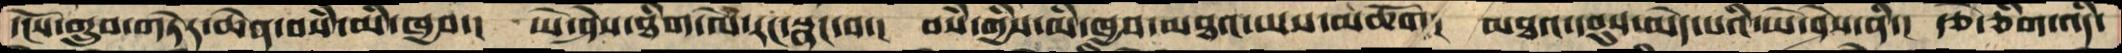དངོས་གྲུབ་གཏེར་ཆེན་བསཾ་མི་ཁྱབ་།  ཡེ་ཤེས་ཐིག་ལེ་རང་སྣང་བ་།  བསཾ་གྱིས་མི་ཁྱབ་མཐའ་ཡས་མཆོག།  མཐའ་དབུས་མེད་པའི་ཡེ་ཤེས་ནི་།  རྩེ་ཅིག་འདི་
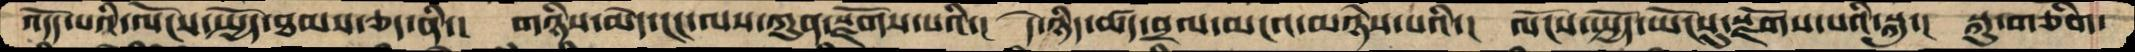འདོད་པའི་ལོངས་སྤྱོད་ཐམས་ཅད་ནི་།  གཉིས་མེད་ངང་ལས་ཀུན་སྫོགས་པའི་།  དེ་ཉིད་ཚད་བྲལ་མངའ་མཉེས་པའི་།  ལོངས་སྤྱོད་ཡོངསུ་སྫོགས་པའི་སྐུ་།  སྐུ་གཅིག་
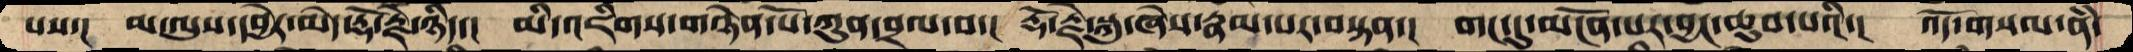པས་།  མ་ལུས་དབྱེར་མེད་རྡོ་རྗེ་ཉིད་།  མི་འཇིགས་གཉེན་པོ་ཀུན་བྲལ་བ་།  རྡོ་རྗེ་སྐུ་ཞེས་རྣམ་པར་བསྟན་།  གང་དུ་མངོན་པར་བྱང་ཆུབ་པའི་།  འོད་གསལ་ནཾ་
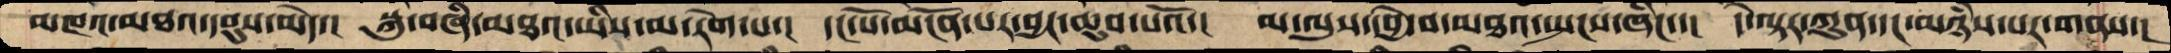མཁའ་མཐའ་དབུས་མེད་།  སྐུ་བཞི་མཐའ་ཡིས་མ་རེག་པ་།  དང་པོ་མངོན་པར་བྱང་ཆུབ་པའོ་།  མ་ལུས་དབྱེ་བ་མཐའ་སྤངས་ཞིང་་།  དེ་ལྟར་ཀུན་དང་མཉཾས་པར་གནས་།
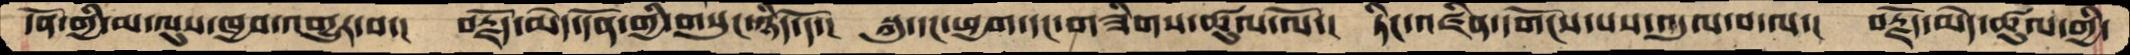དོན་གྱི་མ་ལུས་ཁྱབ་འགྱུར་བ་།  བརྗོད་མེད་དོན་གྱི་གསུང་ཉིད་དོ་།  སྐུ་དང་ཕྱག་དང་གཟིགས་ཚུལ་ལོ་།  ཏིང་འཛིན་དགོངས་པས་འདུལ་བ་ལ་།  བརྗོད་མེད་ཚུལ་གྱི་
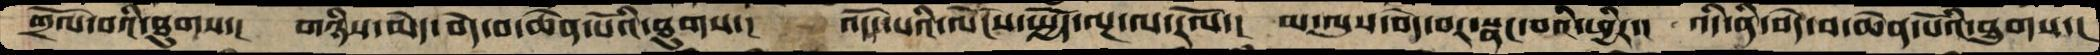གྲོལ་བའི་ཐུགས་།  གཉིས་མེད་བདེ་བ་ཆེན་པོའི་ཐུགས་།   འདོད་པའི་ལོངས་སྤྱོད་ལྔ་ལ་རོལ་།  མ་ལུས་བདེ་བར་སྣང་བའི་ཕྱིར་།  འདི་ནི་བདེ་བ་ཆེན་པོའི་ཐུགས་།
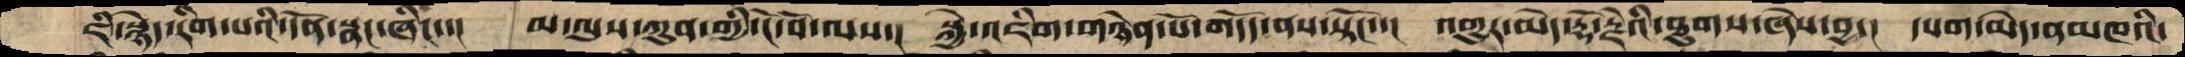ཇི་སྙེད་རིག་པའི་དོན་སྣང་ཞིང་་།  མ་ལུས་ཀུན་གྱི་ངོ་བོ་ལས་།  སྐྱེ་འཇིག་གཉེན་པོ་གདོད་ནས་སྟོང་་།  འགྱུར་མེད་རྡོ་རྗེའི་ཐུགས་ཞེས་བྱ་།  དཔག་མེད་ནམཁའི་
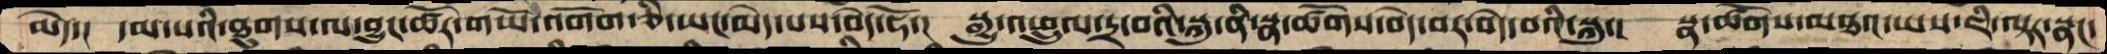མེད་།  དམ་པའི་ཐུགས་ལ་བྱུང་ཚོར་གཡོ་འགོག་ཅི་ཡང་མེད་པས་བདེ་ཧོ་།  སྒྱུ་འཕྲུལ་དྲ་བའི་སྐུ་ནི་སྣ་ཚོགས་བདེ་བར་བདེ་བའི་སྐུ་།  སྣ་ཚོགས་མཐའ་ཡས་ཇི་ལྟར་སྣང་
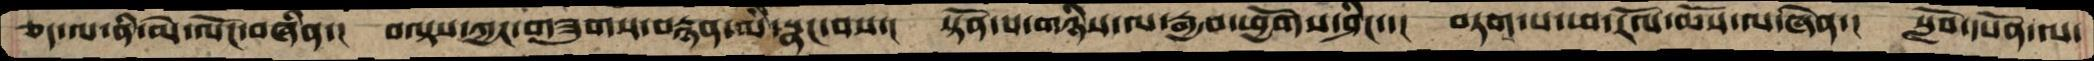ཅད་ལ་ནི་མེ་ལོང་བཞིན་།  བལྟས་ཀྱང་གཟུགས་བརྙན་མི་སྣང་བས་།  སྟོན་པ་གཉིས་ལ་རྒྱབ་ཕྱོགས་ཤིང་་།   བཏག་པ་ཕ་རོལ་ཆོས་ལ་ཞེན་།  སློབ་དཔོན་ལ་
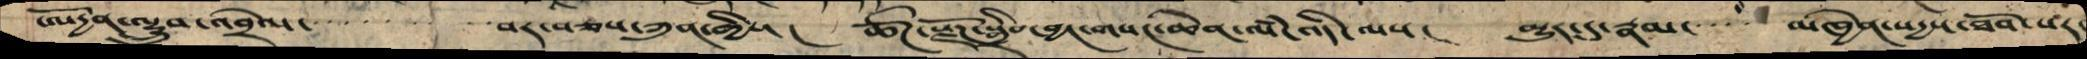ཨོདྱན་ལྷྲུབ་འབྲེལ་་་་་་་་་་་བར་བཅས་ཀུན་གྱིས་།  ཚོཌ་སྫོཌ་སྒྲིབ་བྱང་གསང་ཆེན་ལཾ་འདི་ལས་།  མྱུར་དུ་རྣམ་་་་་མཁྱེན་སདྱས་ཐོབ་པར་
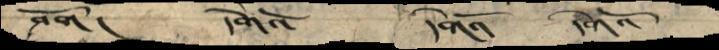ཤོག། དགེའོ   དགེའོ  དགེའོ
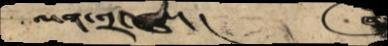ལན་གྲངས་ནི། ཞུ
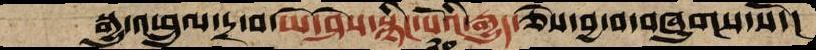སྒྲུ་འཕྲུལ་དྲ་བ་ཡེ་ཤེས་སྙིང་པོའི་རྒྱུད་ཅེས་བྱ་བ་བཞུགས་སོ་།
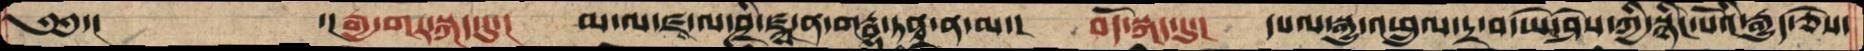༄༅་།        ་།རྒྱ་གར་སྐད་དུ་།  མ་ལ་ཛྭ་ལ་ཤྲི་ཛྙཱ་ན་གརྦྷ་ཏནྟྲ་ན་མ་།  བོད་སྐད་དུ་།  དཔལ་སྒྱུ་འཕྲུལ་དྲ་བ་ཡེ་ཤེས་ཀྱི་སྙིང་པོའི་རྒྱུད་ཅེས་
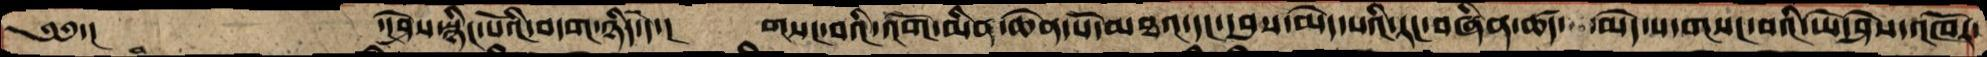༄༅་།          ་།ཤེས་སྙིང་པོའི་བདག་ཉིད་དེ་།       གསང་བའི་འོག་མིན་ཆེན་པོ་མཐའ་དང་དབུས་མེད་པའི་རང་བཞིན་ཚད་མེད་པ་གསང་བའི་ཡེ་ཤེས་འཁོར་
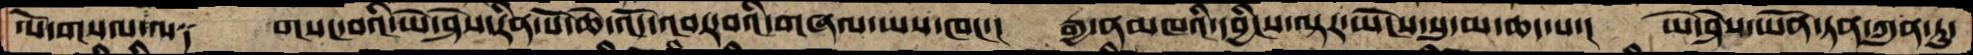ལོ་གསལ་ལ༑    གསང་བའི་ཡེ་ཤེས་རིན་པོ་ཆེ་འོད་འབར་བའི་གཞལ་ཡས་ཁང་།  རྒྱ་ནམཁའི་དབྱིངས་ལྟར་ཡོངས་སུ་མ་ཆད་པ་།    ཡེ་ཤེས་ཡོན་ཏན་ཀུན་ཏུ་
